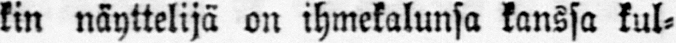kin näyttelijä on ihmekalunsa kanssa kul-
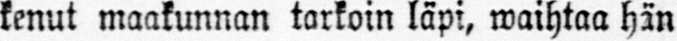kenut maakunnan tarkoin läpi, waihtaa hän
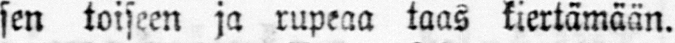sen toiseen ja rupeaa taas kiertämään.
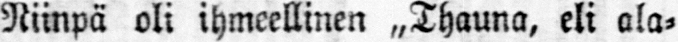Niinpä oli ihmeellinen „Thauna, eli ala-
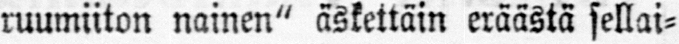ruumiiton nainen" äskettäin eräästä sellai-
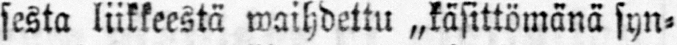sesta liikkeestä waihdettu „käsittömänä syn-
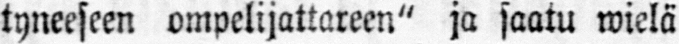tyneeseen ompelijattareen" ja saatu wielä
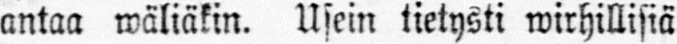antaa wäliäkin. Usein tietysti wirhillisiä
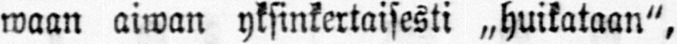waan aiwan yksinkertaisesti ˶huikataan",
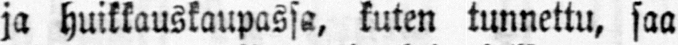ja huikkauskaupassa, kuten tunnettu, saa
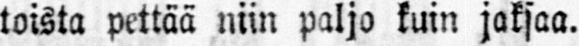toista pettää niin paljo kuin jaksaa.
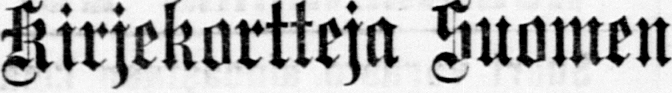Kirjekortteja Suomen
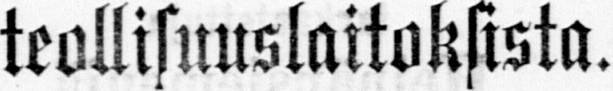teollisuuslaitoksista.
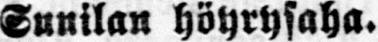Sunilan höyrysaha.
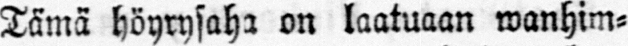Tämä höyrysaha on laatuaan wanhim-
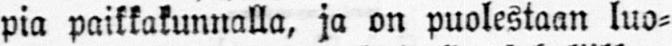pia paikkakunnalla, ja on puolestaan luo-
